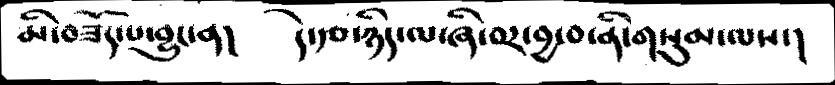མི་བཟོད་པ་བྱུང་ན།   དེ་རྩ་ཉིད་ལ་ཞི་བར་བྱ་བ་ནི་གསུམ་ལས་།
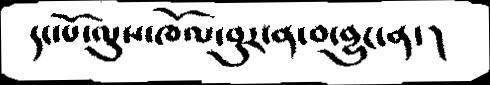དང་པོ་ལུས་ཁོལ་བུར་ན་བ་བྱུང་ན་།
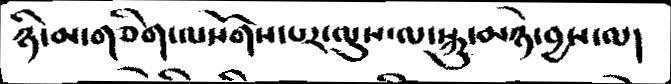ཉི་མ་གཅིག་ལསོགས་པར་ལུས་ལ་སྐུ་མཉེ་བྱས་ལ།
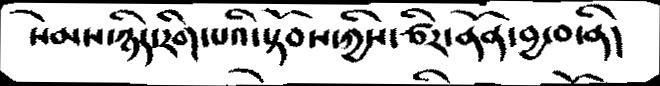སེམས་ཉིད་རིག་པའི་སྟོབས་ཀྱིས་ཙིར་ནོན་བྱ་བ་ནི།
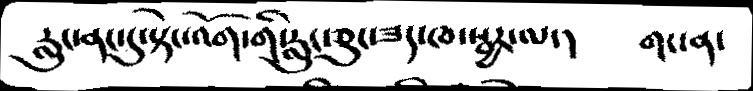རླུང་ནང་དུ་སྟེང་འོག་གི་རླུང་ཅུང་ཟད་ཁ་སྦྱར་ལ་།    གང་ན་
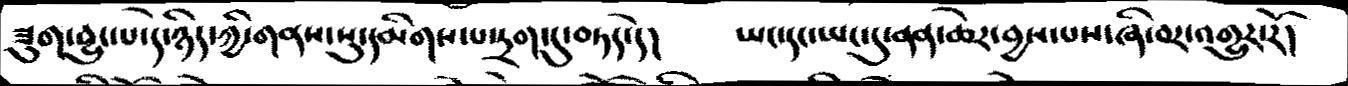ཟུག་བྱུང་པ་དེ་ཉིད་ཀྱི་གནས་སུ་དམིགས་པ་དྲག་དུ་བཏད་དེ།    ཡང་དང་ཡང་དུ་ནན་ཆེར་བྱས་པས་ཞི་བར་འགྱུར་རོ།
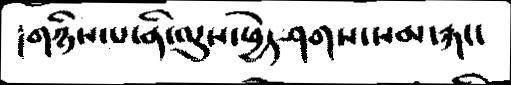།གཉིས་པ་ནི་ལུས་ཕྱེད་ཤགས་སམ་རྐང་
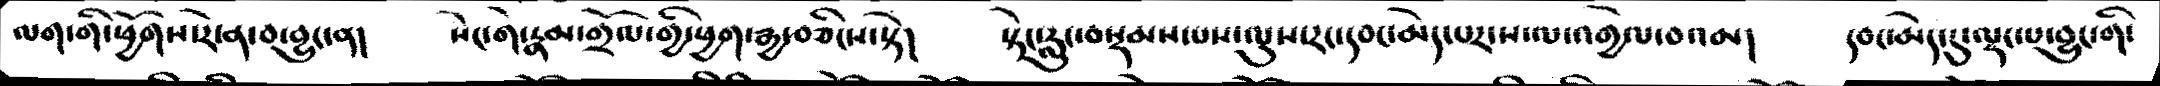ལག་གི་ཕྱོགས་རེ་ན་བ་བྱུང་ན།   སེང་གེ་རྣམ་གྲོལ་གྱི་ཕྱག་རྒྱ་བཅིངས་སྟེ།   སྟེང་རླུང་བསྡམས་པས་ལུས་རང་དབང་མེད་པར་ས་ལ་འགྱེལ་བའམ།   དབང་མེད་དུ་ལྡང་པ་བྱུང་གི་
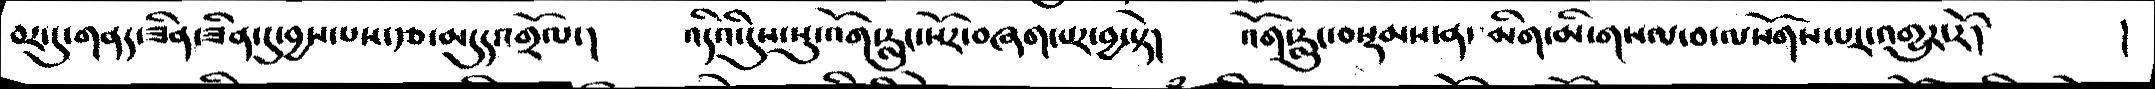བར་དུ་གནད་ཟིན་ཟིན་དུ་བྱས་པས་རྩ་མདུད་གྲོལ་།   འདིའི་དུས་སུ་འོག་རླུང་སོར་བཞག་པར་བྱ་སྟེ།   འོག་རླུང་བསྡམས་ན་མིག་མི་གསལ་བ་ལསོགས་པར་འགྱུར་རོ།   །
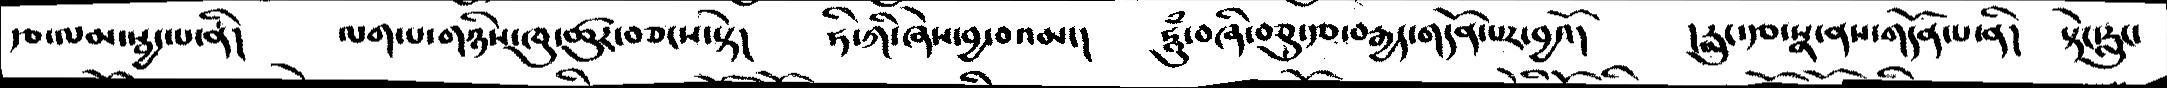རྩ་ལམ་སྦྱང་པ་ནི།   ལག་པ་གཉིས་ཁུ་ཚུར་བཅངས་སྟེ།    ཧི་ཀི་ཞེས་བྱ་བའམ་།   ཧཱུཾ་བཞི་བཅུ་རྩ་བརྒྱད་གདོན་པར་བྱའོ།    །རླུང་རྩ་སྣ་ནས་གདོན་པ་ནི།   སྟེང་རླུང་
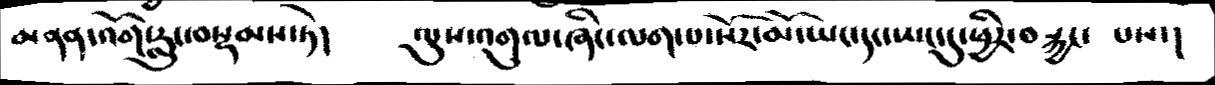མནན་འོག་རླུང་བསྡམས་ཏེ།   ལུས་འགུལ་ཞིང་ལག་པ་སོར་མོ་ཡང་དང་ཡང་དུ་ཕྱིར་བརྐྱང་ པས་།
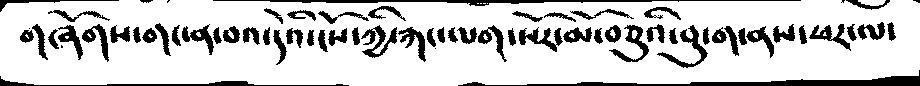གཞོགས་གང་ན་བའ་དེའི་ངོས་ཀྱི་རྐང་ལག་སོར་མོ་བཅུའི་བུ་ག་ནས་ཕར་ལ་
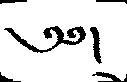༄༅།
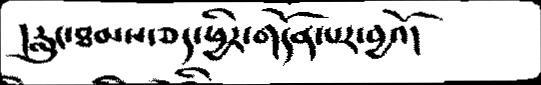།རླུང་ཐམས་ཅད་ཕྱིར་གདོན་པར་བྱའོ།
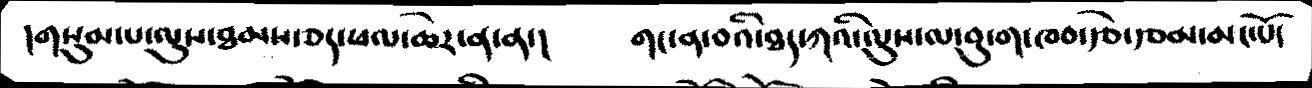།གསུམ་པ་ལུས་ཐམས་ཅད་ཕལ་ཆེར་ན་ན་།   གང་ན་བའི་ཐད་ཀོའི་ལུས་ལ་བུ་ག་ཁབ་རྩེ་རྩམ་མང་པོ་
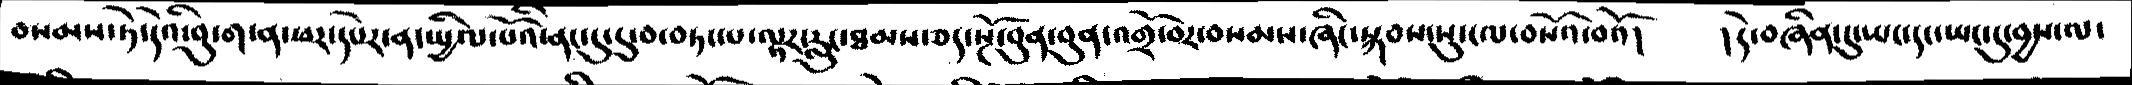བསམས་ཏེ་དེའི་བུ་ག་ན་ཕར་དཔེར་ན་སྤྱིལ་པོའི་ནང་དུ་དུ་བ་བཏང་པ་ལྟར་རླུངཐམས་ཅད་སྔོ་བུན་བུན་འགྲོ་བར་བསམས་ཞིང་སྐབས་སུ་ངལ་བསོའ་བའོ།   །དེ་བཞིན་དུ་ཡང་དང་ཡང་དུ་བྱས་ལ་
